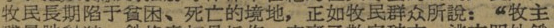牧民長期陷于貧困、死亡的境地，正如牧民群众所說：“牧主
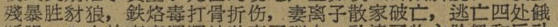殘暴胜豺狼，鉄烙毒打骨折伤，妻离子散家破亡，逃亡四处餓
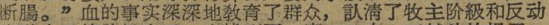断腸。”血的事实深深地教育了群众，认清了牧主阶級和反动
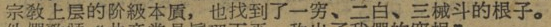宗敎上层的阶級本貭，也找到了一穷、二白、三械斗的根子。
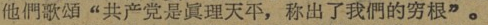他們歌頌“共产党是眞理天平，称出了我們的穷根”。
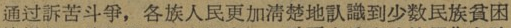通过訴苦斗爭，各族人民更加清楚地认識到少数民族貧困
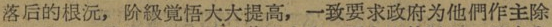落后的根沅，阶級覚悟大大提高，一致要求政府为他們作主除
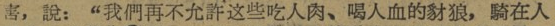害，說：“我們再不允許这些吃人肉、喝人血的豺狼，騎在人
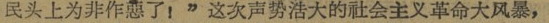民头上为非作惡了！”这次声势洁大的社会主义革命大风暴
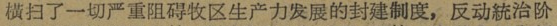橫扫了一切严重阻碍牧区生产力发展的封建制度，反动統治阶
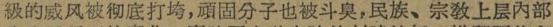級的威风被彻底打垮，頑固分子也被斗臭，民族、宗敎上层內部
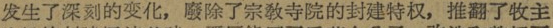发生了深刻的变化，廢除了宗敎寺院的封建特权，推翻了牧主
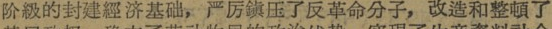阶級的封建經济基础，严厉鎮压了反革命分子，改造和整頓了
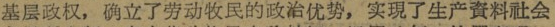基层政权，确立了劳动牧民的政治优势，实現了生产資料社会
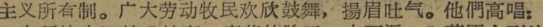主义所有制。广大劳动牧民欢欣鼓舞，揚眉吐气。他們高唱：
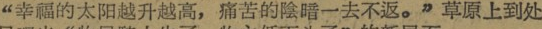“幸福的太阳越升越高，痛苦的陰暗一去不返。”草原上到处
